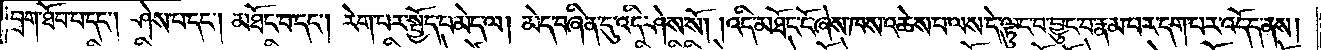བྲག་ཐོབ་པ་དང༌། ཤེས་པ་དང༌། མཐོང་བ་དང༌། རེག་པར་སྤྱོད་པ་མེད་ལ། མེད་བཞིན་དུ་འདི་ཤེས་སོ། །འདི་མཐོང་ངོ་ཞེས་ཁས་འཆེས་པ་ལས་དེ་ལྟུང་བ་བྱུང་བ་རྣམ་པར་དག་པར་འདོད་ནས།
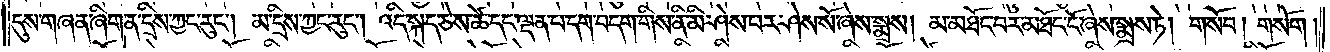དུས་གཞན་ཞིག་ན་དྲིས་ཀྱང་རུང༌། མ་དྲིས་ཀྱང་རུང༌། འདི་སྐད་ཅེས་ཚེ་དང་ལྡན་པ་དག་བདག་གིས་ནི་མི་ཤེས་པར་ཤེས་སོ་ཞེས་སྨྲས། མ་མཐོང་བར་མཐོང་ངོ་ཞེས་སྨྲས་ཏེ། གསོབ། གསོག །
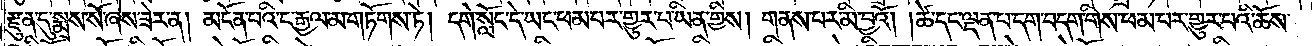རྫུན་དུ་སྨྲས་སོ་ཞེས་ཟེར་ན། མངོན་པའི་ང་རྒྱལ་མ་གཏོགས་ཏེ། དགེ་སློང་དེ་ཡང་ཕམ་པར་གྱུར་པ་ཡིན་གྱིས། གནས་པར་མི་བྱའོ། །ཚེ་དང་ལྡན་པ་དག་བདག་གིས་ཕམ་པར་གྱུར་པའི་ཆོས་
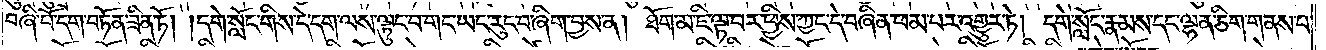བཞི་པོ་དག་བཏོན་ཟིན་ཏོ། །དགེ་སློང་གིས་དེ་དག་ལས་ལྟུང་བ་གང་ཡང་རུང་བ་ཞིག་བྱས་ན། ཐོག་མ་ཇི་ལྟ་བར་ཕྱིས་ཀྱང་དེ་བཞིན་ཕམ་པར་འགྱུར་ཏེ། དགེ་སློང་རྣམས་དང་ལྷན་ཅིག་གནས་པ་
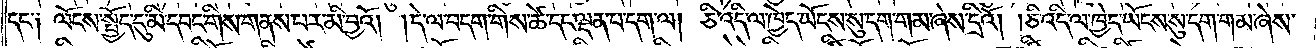དང་༑ ལོངས་སྤྱོད་དུ་མི་དབང་གིས་གནས་པར་མི་བྱའོ། །དེ་ལ་བདག་གིས་ཚེ་དང་ལྡན་པ་དག་ལ། ཅི་འདི་ལ་ཁྱེད་ཡོངས་སུ་དག་གམ་ཞེས་དྲིའོ། །ཅི་འདི་ལ་ཁྱེད་ཡོངས་སུ་དག་གམ་ཞེས་
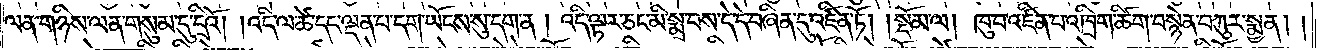ལན་གཉིས་ལན་གསུམ་དུ་དྲིའོ། །འདི་ལ་ཚེ་དང་ལྡན་པ་དག་ཡོངས་སུ་དག་ན། འདི་ལྟར་ཅང་མི་སྨྲ་བས་དེ་དེ་བཞིན་དུ་འཛིན་ཏོ།    །སྡོམ་ལ། ཁུ་བ་འཛིན་པ་འཁྲིག་ཚིག་བསྙེན་བཀུར་སྨྱན། །
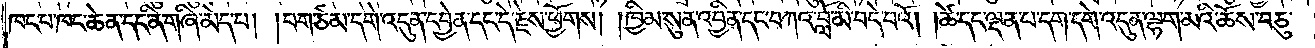ཁང་པ་ཁང་ཆེན་དང་ནི་གཞི་མེད་པ། །བག་ཙམ་དགེ་འདུན་དབྱེན་དང་དེ་རྗེས་ཕྱོགས། །ཁྱིམ་སུན་འབྱིན་དང་བཀའ་བློ་མི་བདེ་བའོ། །ཚེ་དང་ལྡན་པ་དག་དགེ་འདུན་ལྷག་མའི་ཆོས་བཅུ་
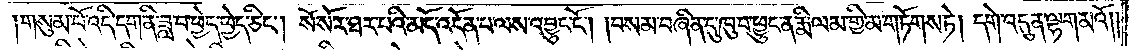གསུམ་པོ་འདི་དག་ནི་ཟླ་བ་ཕྱེད་ཕྱེད་ཅིང༌། སོ་སོར་ཐར་པའི་མདོ་འདོན་པ་ལས་འབྱུང་ངོ༌། །བསམ་བཞིན་དུ་ཁུ་བ་ཕྱུང་ན་རྨི་ལམ་གྱི་མ་གཏོགས་ཏེ། དགེ་འདུན་ལྷག་མའོ༎
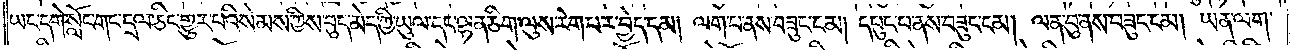ཡང་དགེ་སློང་གང་དྲལ་ཅིང་གྱུར་པའི་སེམས་ཀྱིས་བུད་མེད་ཀྱི་ཡུལ་དང་ལྷན་ཅིག་ལུས་རེག་པར་བྱེད་དམ། ལག་པ་ནས་བཟུང་ངམ། དཔུང་པ་ནས་བཟུང་ངམ། ལན་བུ་ནས་བཟུང་ངམ། ཡན་ལག་
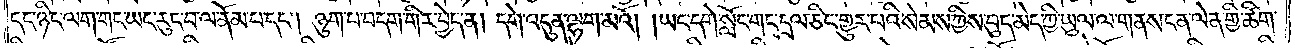དང་ཉིད་ལག་གང་ཡང་རུང་བ་ལ་ནོམ་པ་དང༌། ཉུག་པ་བདག་གིར་བྱེད་ན། དགེ་འདུན་ལྷག་མའོ། །ཡང་དགེ་སློང་གང་དྲལ་ཅིང་གྱུར་པའི་སེམས་ཀྱིས་བུད་མེད་ཀྱི་ཡུལ་ལ་གནས་ངན་ལེན་གྱི་ཚིག་
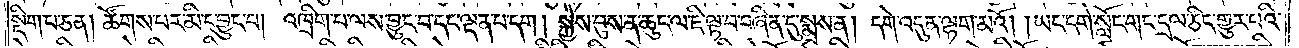སྡིག་པ་ཅན། ཚོགས་པར་མི་དབྱུང་པ། འཁྲིག་པ་ལས་བྱུང་བ་དང་ལྡན་པ་དག། སྐྱེས་བུས་ན་ཆུང་ལ་ཇི་ལྟ་བ་བཞིན་དུ་སྨྲས་ན། དགེ་འདུན་ལྷག་མའོ། །ཡང་དགེ་སློང་གང་དྲལ་ཅིང་གྱུར་པའི་
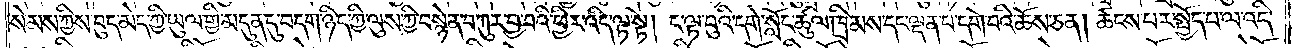སེམས་ཀྱིས་བུད་མེད་ཀྱི་ཡུལ་གྱི་མདུན་དུ་བདག་ཉིད་ཀྱི་ལུས་ཀྱི་བསྙེན་བཀུར་བྱ་བའི་ཕྱིར་འདི་ལྟ་སྟེ། ད་ལྟ་བུའི་དགེ་སློང་ཚུལ་ཁྲིམས་དང་ལྡན་པ་དགེ་བའི་ཆོས་ཅན། ཚངས་པར་སྤྱོད་པ་ལ་འདི་
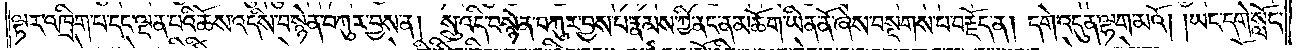ལྟར་འཁྲིག་པ་དང་ལྡན་པའི་ཆོས་འདིས་བསྙེན་བཀུར་བྱས་ན། སྲུ་འདི་བསྙེན་བཀུར་བྱས་པ་རྣམས་ཀྱི་ནང་ན་མཆོག་ཡིན་ནོ་ཞེས་བསྔགས་པ་བརྗོད་ན། དགེ་འདུན་ལྷག་མའོ། །ཡང་དགེ་སློང་
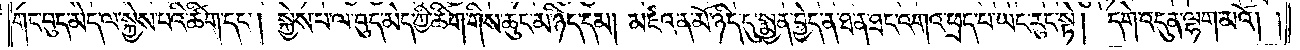གང་བུད་མེད་ལ་སྐྱེས་པའི་ཚིག་དང༌། སྐྱེས་པ་ལ་བུད་མེད་ཀྱི་ཚིག་གིས་ཆུང་མ་ཉིད་དམ། མཛའ་ན་མོ་ཉིད་དུ་སྨྱན་བྱེད་ན་ཐ་ན་ཐང་འགའ་ཕྲད་པ་ཡང་རུང་སྟེ། དགེ་འདུན་ལྷག་མའོ། །
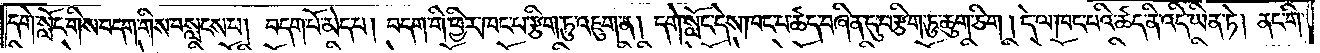དགེ་སློང་གིས་བདག་གིས་བསླངས་པ། བདག་པོ་མེད་པ། བདག་གི་ཕྱིར་ཁང་པ་རྩིག་ཏུ་འཇུག་ན། དགེ་སློང་དེས་ཁང་པ་ཚད་བཞིན་དུ་བརྩིག་ཏུ་ཆུག་ཅིག། དེ་ལ་ཁང་པའི་ཚད་ནི་འདི་ཡིན་ཏེ། ནང་གི་
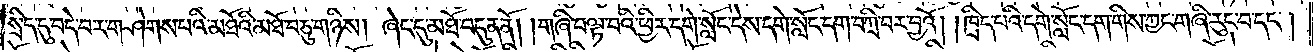སྲིད་དུ་བདེ་བར་གཤེགས་པའི་མཐོའི་མཐོ་བཅུ་གཉིས། ཞེང་དུ་མཐོ་བདུན་ནོ། །གཞི་བལྟ་བའི་ཕྱིར་དགེ་སློང་དེས་དགེ་སློང་དག་བཀྲི་བར་བྱའོ། །ཁྲིད་པའི་དགེ་སློང་དག་གིས་ཀྱང་གཞི་རུང་བ་དང༌།
